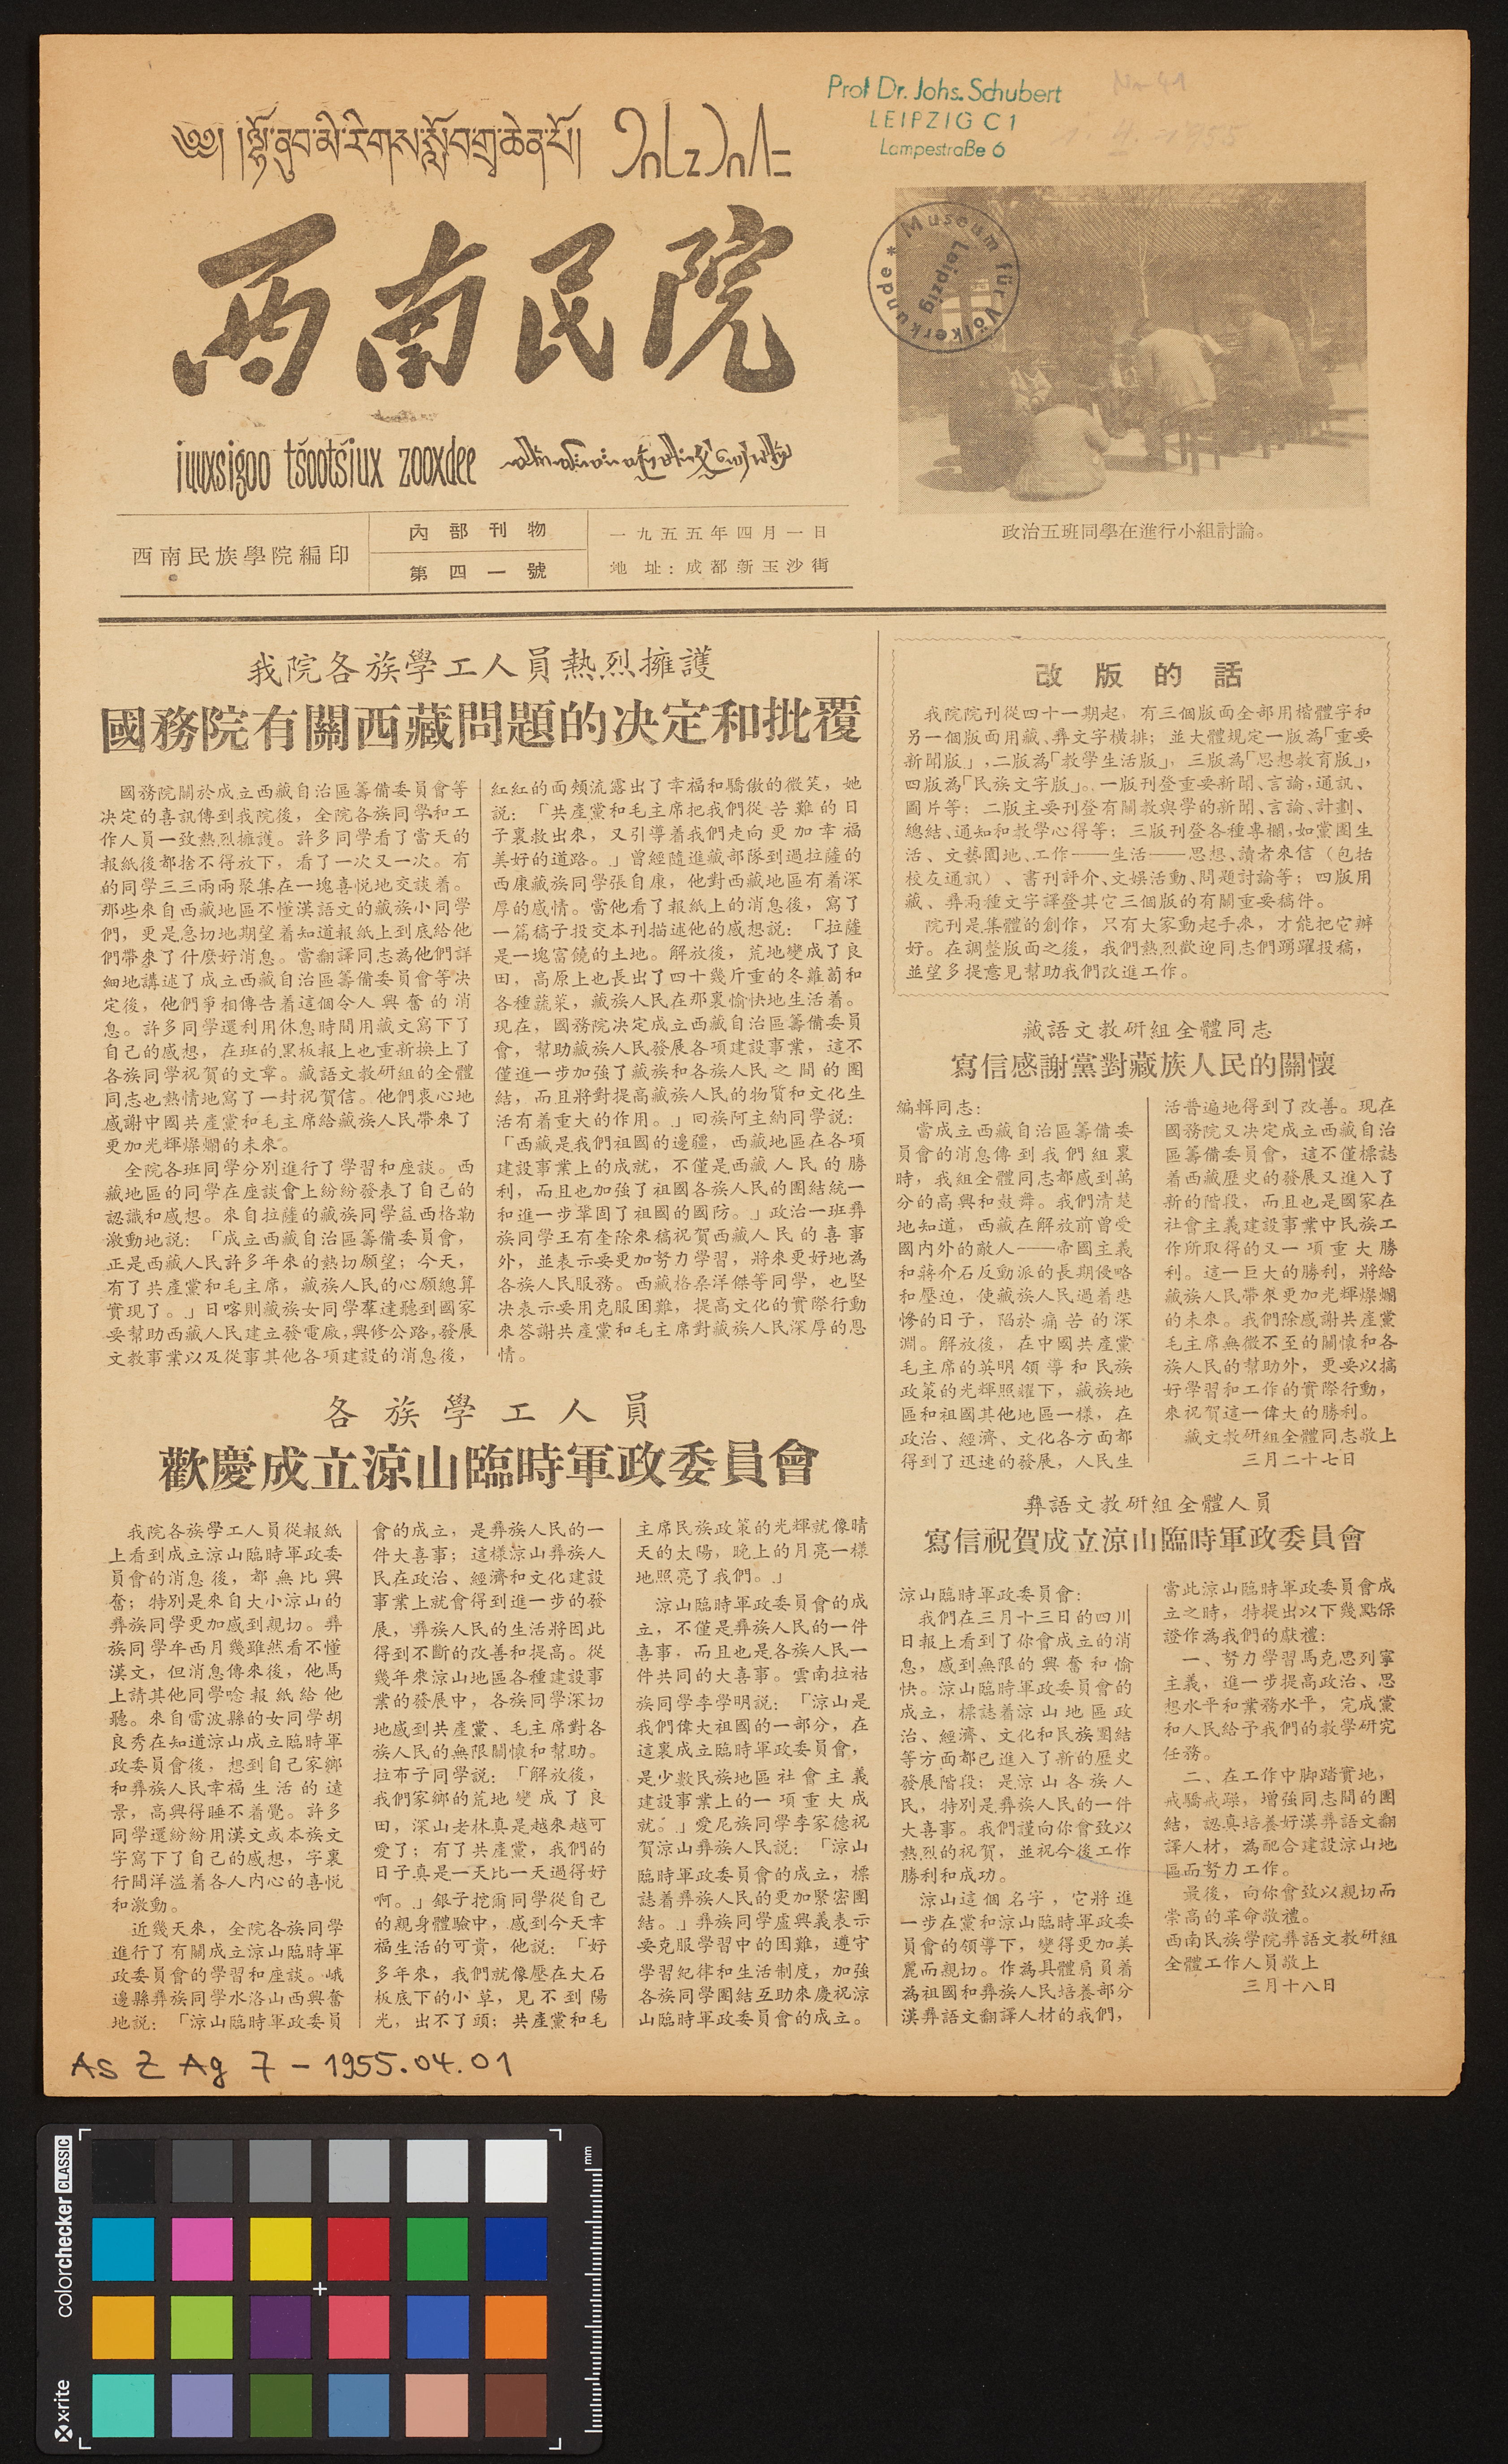༄༅། །ལྷོ་ནུབ་མི་རིགས་སློབ་གྲྭ་ཆེན་པོ།
西南民院
iuuxsigoo ts'oots'iux zooxdee
西南民族學院編印
內部刊物
第四一號
一九五五年四月一日
地址：成都新玉沙街
政治五班同學在進行小組討論。
我院各族學工人員熱烈擁護
國務院有關西藏問題的決定和批覆
國務院關於成立西藏自治區籌備委員會等
決定的喜訊傳到我院後，全院各族同學和工
作人員一致熱烈擁護。許多同學看了當天的
報紙後的歐捨不得放下，看了一次又一次。有
的同學三三兩兩聚集在一塊喜悅地交談着。
那些來自西藏地區不懂漢語文的藏族小同學
們，更是急切地期望着知道報紙上到底給他
們帶來了什麼好消息。當翻譯同志為他們詳
細地講述了成立西藏自治區籌備委員會等決
定後，他們爭相傳告着這個令人興奮的消
息。許多同學還利用休息時間用藏文寫下了
自己的感想，在班的黑板報上也重新換上了
各族同學祝賀的文章。藏語文教研組的全體
同志也熱情地寫了一封祝賀信。他們衷心地
感謝中國共產黨和毛主席給藏族人民帶來了
更加光輝燦爛的未來。
全院各班同學分別進行了學習和座談。西
藏地區的同學在座談會上紛紛發表了自己的
認識和感想。來自拉薩的藏族同學益西格勒
激動地說：「成立西藏自治區籌備委員會，
正式西藏人民許多年來的熱切願望；今天，
有了共產黨和毛主席，藏族人民的心願總算
實現了。」日喀則藏族女同學羣達聽到國家
要幫助西藏人民建立發電廠，興修公路，發展
文教事業以及從事其他各項建設的消息後，
紅紅的面頰流露出了幸福和驕傲的微笑，她
說：「共產黨和毛主席把我們從苦難的日
子裏救出來，又引導着我們走向更加幸福
美好的道路。」曾經隨進藏部隊到過拉薩的
西康藏族同學張自康，他對西藏地區有着深
厚的感情。當他看了報紙上的消息後，寫了
一篇稿子投交本刊描述他的感想說：「拉薩
是一塊富饒的土地。解放後，荒地變成了良
田，高原上也長出了四十幾斤重的冬蘿蔔和
各種蔬菜，藏族人民在那裏愉快地生活着。
現在，國務院決定成立西藏自治區籌備委員
會，幫助藏族人民發展各項建設事業，這不
僅進一步加強了藏族和各族人民之間的團
結，而且將對提高藏族人民的物質和文化生
活有着重大的作用。」囘族阿主納同學說：
「西藏是我們祖國的邊疆，西藏地區在各項
建設事業上的成就，不僅是西藏人民的勝
利，而且也加強了祖國各族人民的團結統一
和進一步鞏固了祖國的國防。」政治一班彝
族同學王有奎除來稿祝賀西藏人民的喜事
外，並表示要更加努力學習，將來更好地為
各族人民服務。西藏格桑洋傑等同學，也堅
決表示要用克服困難，提高文化的實際行動
來答謝共產黨和毛主席對藏族人民深厚的恩
情。
改 版 的 話
我院院刊從四十一期起，有三個版面全部用楷體字和
另一個版面用藏、彝文字橫排；並大體規定一版為「重要
新聞版」，二版為「教學生活版」，三版為「思想教育版」，
四版為「民族文字版」。一版刊登重要新聞、言論，通訊、
圖片等；二版主要刊登有關教與學的新聞、言論、計劃、
總結、通知和教學心得等；三版刊登各種專欄，如黨團生
活、文藝園地、工作——生活——思想、讀者來信（包括
校友通訊）、書刊評介、文娛活動、問題討論等；四版用
藏、彝兩種文字譯登其他三個版的有關重要稿件。
院刊是集體的創作，只有大家動起手來，才能把它辦
好。在調整版面之後，我們熱烈歡迎同志們踊躍投稿，
並望多提意見幫助我們改進工作。
藏語文教研組全體同志
寫信感謝黨對藏族人民的關懷
編輯同志：
當成立西藏自治區籌備委
員會的消息傳到我們組裏
時，我組全體同志都感到萬
分的高興和鼓舞。我們清楚
地知道，西藏在解放前曾受
國內外的敵人——帝國主義
和蔣介石反動派的長期侵略
和壓迫，使藏族人民過着悲
慘的日子，陷於痛苦的深
淵。解放後，在中國共產黨
毛主席的英明領導和民族
政策的光輝照耀下，藏族地
區和祖國其他地區一樣，在
政治、經濟、文化各方面都
得到了迅速的發展，人民生
活普遍地得到了改善。現在
國務院又決定成立西藏自治
區籌備委員會，這不僅標誌
着西藏歷史的發展又進入了
新的階段，而且也是國家在
社會主義建設事業中民族工
作所取得的又一項重大勝
利。這一巨大的勝利，將給
藏族人民帶來更加光輝燦爛
的未來。我們除感謝共產黨
毛主席無微不至的關懷和各
族人民的幫助外，更要以搞
好學習和工作的實際行動，
來祝賀這一偉大的勝利。
藏文教研組全體同志敬上
三月二十七日
各 族 學 工 人 員
歡慶成立涼山臨時軍政委員會
我院各族學工人員從報紙
上看到成立涼山臨時軍政委
員會的消息後，都無比興
奮；特別是來自大小涼山的
彝族同學更加感到親切。彝
族同學牟西月幾雖然看不懂
漢文，但消息傳來後，他馬
上請其他同學唸報紙給他
聽。來自雷波縣的女同學胡
良秀在知道涼山成立臨時軍
政委員會後，想到自己家鄉
和彝族人民幸福生活的遠
景，高興得睡不着覺。許多
同學還紛紛用漢文或本族文
字寫下了自己的感想，字裏
行間洋溢着各人內心的喜悅
和激動。
近幾天來，全院各族同學
進行了有關成立涼山臨時軍
政委員會的學習和座談。峨
邊縣彝族同學水洛山西興奮
地說：「涼山臨時軍政委員
會的成立，是彝族人民的一
件大喜事；這樣涼山彝族人
民在政治、經濟和文化建設
事業上就會得到進一步的發
展，彝族人民的生活將因此
得到不斷地改善和提高。從
幾年來涼山地區各種建設事
業的發展中，各族同學深切
地感到共產黨、毛主席對各
族人民的無限關懷和幫助。
拉布子同學說：「解放後，
我們家鄉的荒地變成了良
田，深山老林真是越來越可
愛了；有了共產黨我們的
日子真是一天比一天過得好
啊。」銀子挖爾同學從自己
的親身體驗中，感到今天幸
福生活的可貴，他說：「好
多年來，我們就像壓在大石
板底下的小草，見不到陽
光，出不了頭；共產黨和毛
主席民族政策的光輝就像晴
天的太陽，晚上的月亮一樣
地照亮了我們。」
涼山臨時軍政委員會的成
立，不僅是彝族人民的一件
喜事，而且也是各族人民一
件共同的大喜事。雲南拉祜
族同學李學明說：「涼山是
我們偉大祖國的一部分，在
這裏成立臨時軍政委員會，
是少數民族地區社會主義
建設事業上的一項重大成
就。」愛尼族同學李家德祝
賀涼山彝族人民說：「涼山
臨時軍政委員會的成立，標
誌着彝族人民的更加緊密團
結。」彝族同學盧興義表示
要克服學習中的困難，遵守
學習紀律和生活制度，加強
各族同學團結互助來慶祝涼
山臨時軍政委員會的成立。
彝語文教研組全體人員
寫信祝賀成立涼山臨時軍政委員會
涼山臨時軍政委員會：
我們在三月十三日的四川
日報上看到了你會成立的消
息，感到無限的興奮和愉
快。涼山臨時軍政委員會的
成立，標誌着涼山地區政
治、經濟、文化和民族團結
等方面都已進入了新的歷史
發展階段；是涼山各族人
民，特別是彝族人民的一件
大喜事。我們謹向你會致以
熱烈的祝賀，並祝今後工作
勝利和成功。
涼山這個名字，它將進
一步在黨和涼山臨時軍政委
員會的領導下，變得更加美
麗而親切。作爲具體肩負着
爲祖國和彝族人民培養部分
漢彝語文翻譯人材的我們，
當此涼山臨時軍政委員會成
立之時，特提出以下幾點保
證作爲我們的獻禮：
一、努力學習馬克思列寧
主義，進一步提高政治、思
想水平和業務水平，完成黨
和人民給予我們的教學研究
任務。
二、在工作中腳踏實地，
戒驕戒躁，增強同志間的團
結，認真培養好漢彝語文翻
譯人材，為配合建設涼山地
區而努力工作。
最後，向你會致以親切而
崇高的革命敬禮。
西南民族學員彝語文教研組
全體工作人員敬上
三月十八日
